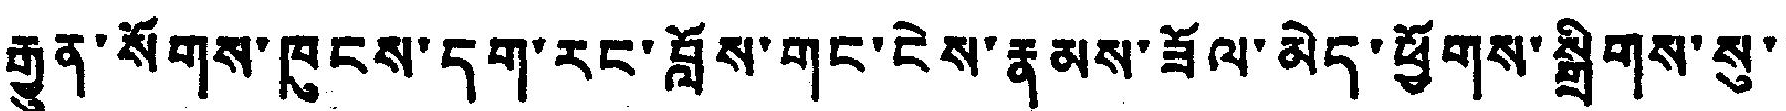རྒྱུན་སོགས་ཁུངས་དག་རང་བློས་གང་ངེས་རྣམས་ཟོལ་མེད་ཕྱོགས་སྒྲིགས་སུ་་
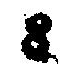8
